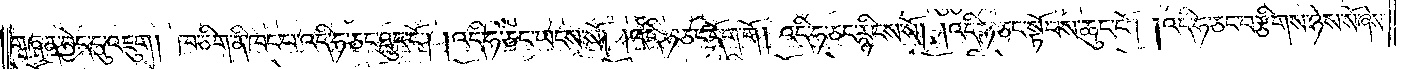གཞན་བྱེད་དུ་འཇུག། ཁ་ཅིག་ནི་ཁང་པ་འདི་ཧ་ཅང་ཐུང་ངོ༌། །འདི་ཧ་ཅང་ཡངས་སོ། །འདི་ཧ་ཅང་དོག་གོ། འདི་ཧ་ཅང་རྙིངས་སོ། །འདི་ཧ་ཅང་སྟོབས་ཆུང་ངོ༌། །འདི་ཧ་ཅང་བརྩིགས་ཉེས་སོ་ཞེས་
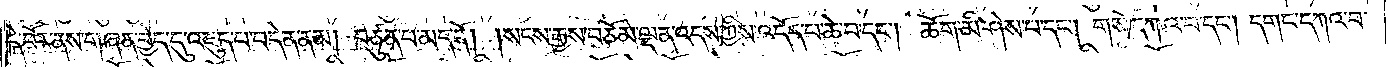དེ་བོར་ནས་གཞན་བྱེད་དུ་འཇུད་པ་བདེན་ནམ། བཙུན་པ་མེད་དོ། །སངས་རྒྱས་བཅོམ་ལྡན་འདས་ཀྱིས་འདོད་པ་ཆེ་བ་དང༌། ཆོག་མི་ཤེས་པ་དང༌། གསོ་དཀའ་བ་དང༌། དགང་དཀའ་བ་
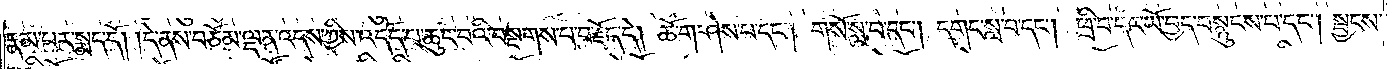རྣམ་པར་སྨད་དོ། །དེ་ནས་བཅོམ་ལྡན་འདས་ཀྱིས་འདོད་པ་ཆུང་བའི་བསྔགས་པ་བརྗོད་དེ། ཆོ་ག་ཤེས་པ་དང༌། གསོ་སླ་བ་དང༌། དགང་སླ་བ་དང༌། ཕྲི་བ་དང་ཡོ་བྱད་བསྙུངས་པ་དང༌། སྦྱངས་
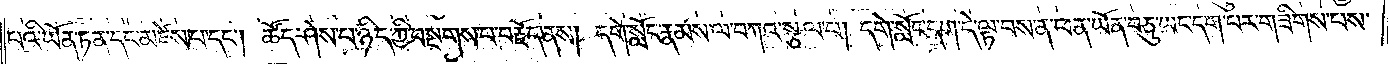པའི་ཡོན་ཏན་དང་མཛེས་པ་དང༌། ཚོད་ཤེས་པ་ཉིད་ཀྱི་བསྔགས་པ་བརྗོད་ནས། དགེ་སློང་རྣམས་ལ་བཀའ་སྩལ་པ། དགེ་སློང་དག་དེ་ལྟ་བས་ན་ཕན་ཡོན་བཅུ་ཡང་དག་པར་གཟིགས་པས་
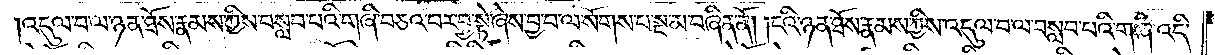།འདུལ་བ་ལ་ཉན་ཐོས་རྣམས་ཀྱིས་བསླབ་པའི་གཞི་བཅའ་བར་བྱ་སྟེ་ཞེས་བྱ་བ་ལ་སོགས་པ་སྔ་མ་བཞིན་ནོ། །ངའི་ཉན་ཐོས་རྣམས་ཀྱིས་འདུལ་བ་ལ་བསླབ་པའི་གཞི་འདི་
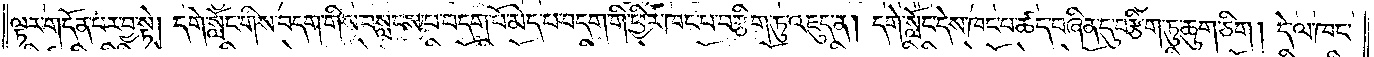ལྟར་གདོན་པར་བྱ་སྟེ། དགེ་སློང་གིས་བདག་གིས་བསླངས་པ་བདག་པོ་མེད་པ་བདག་གི་ཕྱིར་ཁང་པ་བརྩིག་ཏུ་འཇུད་ན། དགེ་སློང་དེས་ཁང་པ་ཚད་བཞིན་དུ་བརྩིག་ཏུ་ཆུག་ཅིག། དེ་ལ་ཁང་
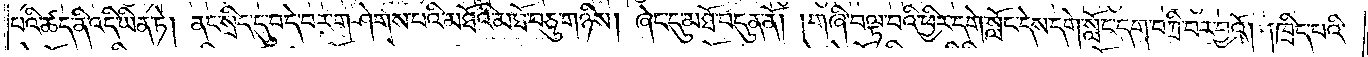པའི་ཚད་ནི་འདི་ཡིན་ཏེ། ནང་སྲིད་དུ་བདེ་བར་གཤེགས་པའི་མཐོའི་མཐོ་བཅུ་གཉིས། ཞེང་དུ་མཐོ་བདུན་ནོ། །གཞི་བལྟ་བའི་ཕྱིར་དགེ་སློང་དེས་དགེ་སློང་དག་བཀྲི་བར་བྱའོ། །ཁྲིད་པའི་
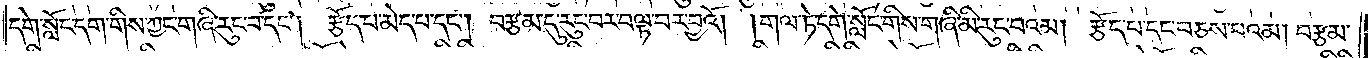དགེ་སློང་དག་གིས་ཀྱང་གཞི་རུང་བ་དང༌། རྩོད་པ་མེད་པ་དང༌། བརྩམ་དུ་རུང་བར་བལྟ་བར་བྱའོ། །གལ་ཏེ་དགེ་སློང་གིས་གཞི་མི་རུང་བའམ། རྩོད་པ་དང་བཅས་པའམ། བརྩམ་
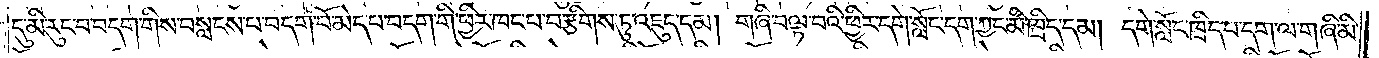དུ་མི་རུང་བ་བདག་གིས་བསླངས་པ་བདག་པོ་མེད་པ་བདག་གི་ཕྱིར་ཁང་པ་བརྩིགས་ཏུ་འཇུད་དམ། གཞི་བལྟ་བའི་ཕྱིར་དགེ་སློང་དག་ཀྱང་མི་ཁྲིད་དམ། དགེ་སློང་ཁྲིད་པ་དག་ལ་གཞི་མི་
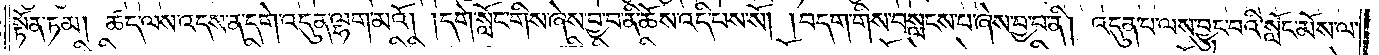སྟོན་ཏམ། ཚད་ལས་འདས་ན་དགེ་འདུན་ལྷག་མའོ། །དགེ་སློང་གིས་ཞེས་བྱ་བ་ནི་ཆོས་འདི་པས་སོ། །བདག་གིས་བསླངས་པ་ཞེས་བྱ་བ་ནི། འདུན་པ་ལས་བྱུང་བའི་སློང་མོས་ལ་
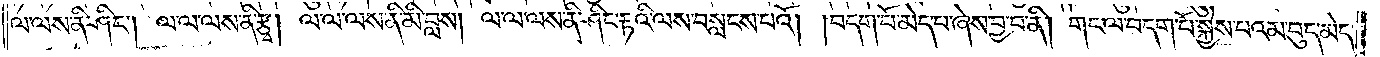ལ་ལས་ནི་ཤིང༌། ལ་ལ་ལས་ནི་རྩྭ། ལ་ལ་ལས་ནི་མི་བླས། ལ་ལ་ལས་ནི་ཤིང་རྟའི་ལས་བསླངས་པའོ། །བདག་པོ་མེད་པ་ཞེས་བྱ་བ་ནི། གང་ལ་བདག་པོ་སྐྱེས་པའམ་བུད་མེད་
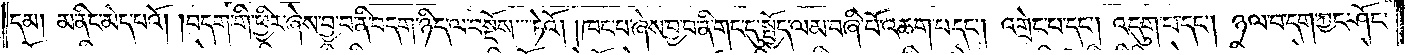དམ། མ་ནིང་མེད་པའོ། །བདག་གི་ཕྱིར་ཞེས་བྱ་བ་ནི་བདག་ཉིད་ལ་བསྔོས་ཏེའོ། །ཁང་པ་ཞེས་བྱ་བ་ནི་གང་དུ་སྤྱོད་ལམ་བཞི་པོ་འཆག་པ་དང༌། འགྲེང་བ་དང༌། འདུག་པ་དང༌། ཉལ་བ་དག་ཀྱང་ཤོང་
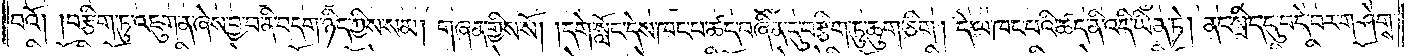པའོ། །བརྩིག་ཏུ་འཇུག་ན་ཞེས་བྱ་བ་ནི་བདག་ཉིད་ཀྱིས་སམ། གཞན་གྱིས་སོ། །དགེ་སློང་དེས་ཁང་པ་ཚད་བཞིན་དུ་བརྩིག་ཏུ་ཆུག་ཅིག། དེ་ལ་ཁང་པའི་ཚད་ནི་འདི་ཡིན་ཏེ། ནང་སྲིད་དུ་བདེ་བར་གཤེགས་
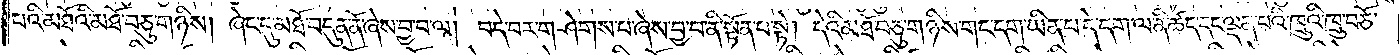པའི་མཐོའི་མཐོ་བཅུ་གཉིས། ཞེང་དུ་མཐོ་བདུན་ནོ་ཞེས་བྱ་བ་ལ། བདེ་བར་གཤེགས་པ་ཞེས་བྱ་བ་ནི་སྟོན་པ་སྟེ། དེའི་མཐོ་བཅུ་གཉིས་གང་དག་ཡིན་པ་དེ་དག་ལ་ནི་ཚད་དང་ལྡན་པའི་ཁྲུའི་ཁྲུ་བཅོ་
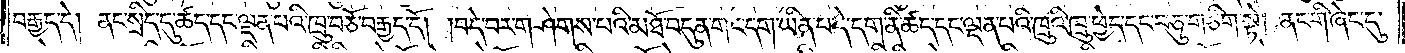བརྒྱད་དེ། ནང་སྲིད་དུ་ཚད་དང་ལྡན་པའི་ཁྲུ་བཅོ་བརྒྱད་དོ། །བདེ་བར་གཤེགས་པའི་མཐོ་བདུན་གང་དག་ཡིན་པ་དེ་དག་ནི་ཚད་དང་ལྡན་པའི་ཁྲུའི་ཁྲུ་ཕྱེད་དང་བཅུ་གཅིག་སྟེ། ནང་གི་ཞེང་དུ་
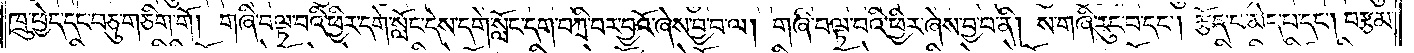ཁྲུ་ཕྱེད་དང་བཅུ་གཅིག་གོ། གཞི་བལྟ་བའི་ཕྱིར་དགེ་སློང་དེས་དགེ་སློང་དག་བཀྲི་བར་བྱའོ་ཞེས་བྱ་བ་ལ། གཞི་བལྟ་བའི་ཕྱིར་ཞེས་བྱ་བ་ནི། ས་གཞི་རུང་བ་དང༌། རྩོད་པ་མེད་པ་དང༌། བརྩམ་
